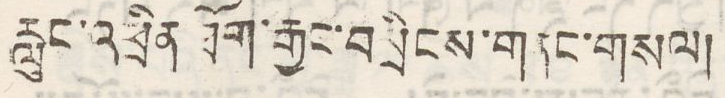རླུང་འཕྲིན ཐོག་རྒྱང་བསྲིངས་གནང་གསལ།
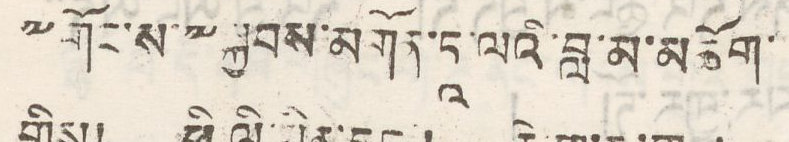༸གོང་ས་༸སྐྱབས་མགོན་ཏྰ་ལའི་བླ་མ་མཆོག་
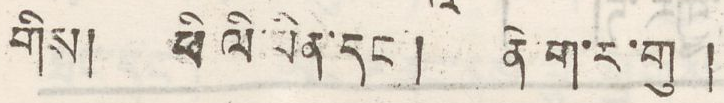གིས། ཕི་ལི་པིན་དང་། ནེ་ག་ར་གུ །
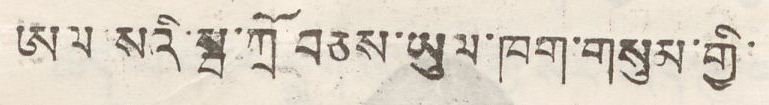ཨལ་སའི་སྦ་ཀྲོ་བཅས་ཡུལ་ཁག་གསུམ་གྱི་
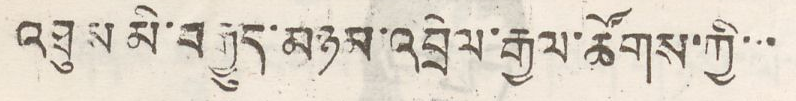འཐུས མི་བརྒྱུད་མཉམ་འབྲེལ་རྒྱལ་ཚོགས་ཀྱི་་་
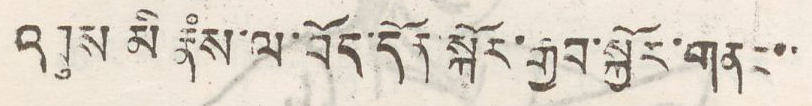འཐུས མི རྣཾས་ལ་བོད་དོན་སྐོར་རྒྱབ་སྐྱོར་གནང་་
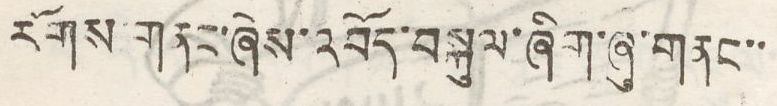རོགས་གནང་ཞེས་འབོད་བསྐུལ་ཞིག་ཞུ་གནང་་
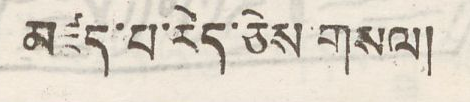མཛད་པ་རེད་ཅེས་གསལ།
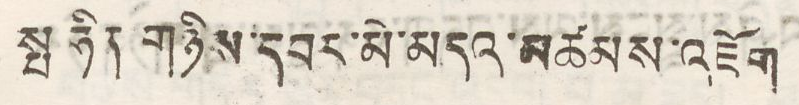སྤ ཧིན གཉིས་དབར་མི་མདའ་མཚམས་འཇོག
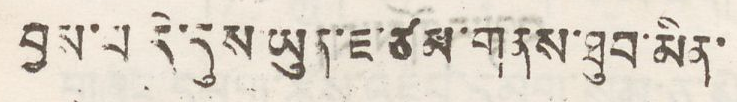བྱས་པ དེ་དུས ཡུན་ཇ་ཙམ་གནས་ཐུབ་མིན་
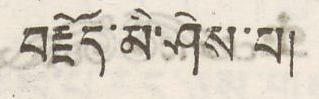བརྗོད་མི་ཤེས་པ།
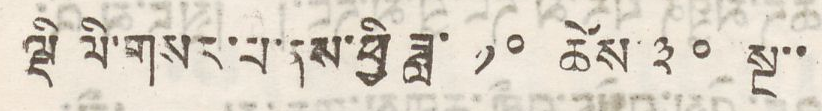ལྡི ལི་གསར་པ་ནས་ཕྱི ཟླ་ ༡༠ ཚེས་ ༣༠ སྔ་་
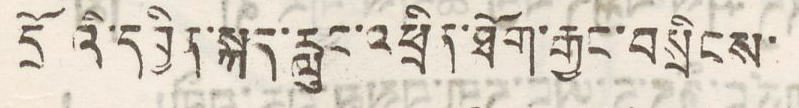དྲོའི་དབྱིན་སྐད་རླུང་འཕྲིན་ཐོག་རྒྱང་བསྲིངས་
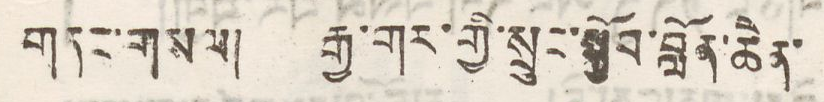གནང་གསལ། རྒྱ་གར་གྱི་སྲུང་སྐྱོབ་བློན་ཆེན་
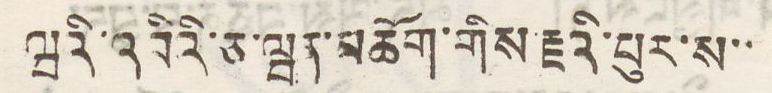ཝའི་འབིའི་ཅ་ཝན་མཆོག་གིས་རྗའི་པུར་ས་་
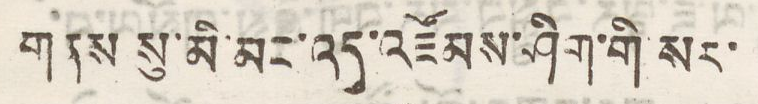གནས སུ་མི་མང་འདུ་འཛོམས་ཤིག་གི་སར་
